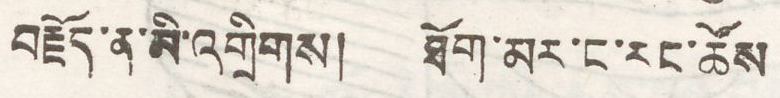བརྗོད་ན་མི་འགྲིགས། ཐོག་མར་ང་རང་ཚོས
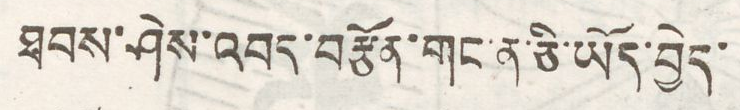ཐབས་ཤེས་འབད་བརྩོན་གང་ན་ཅི་ཡོད་བྱེད་
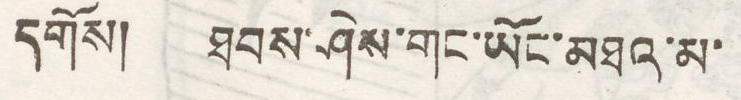དགོས། ཐབས་ཤེས་གང་ཡོད་མཐའ་མ་
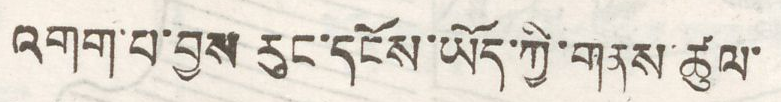འགག་པ་བྱས རུང་དངོས་ཡོད་ཀྱི་གནས་ཚུལ་
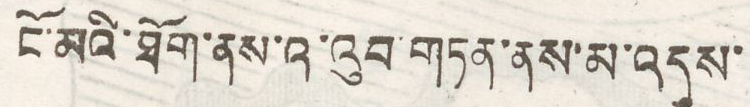ངོ་མའི་ཐོན་ནས་འ་འུབ་གཏན་ནས་མ་འདུས་
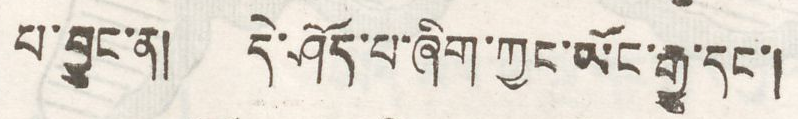པ་བྱུང་ན། དེ་ཤོད་པ་ཞིག་ཀྱང་ཡོང་རྒྱུ་དང་།
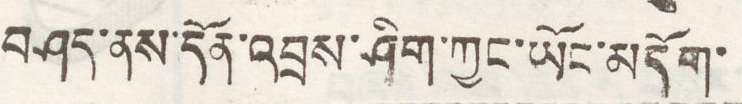བཤད་ནས་དོན་འབྲས་ཤིག་ཀྱང་ཡོང་མདོག་
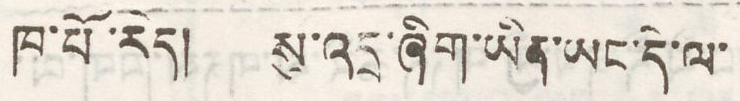ཁ་པོ་རེད། སུ་འདྲ་ཞིག་ཡིན་ཡང་དེ་ལ་
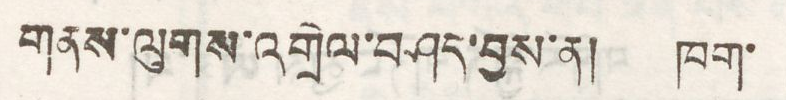གནས་ལུགས་འགྲེལ་བཤད་བྱས་ན། ཁག་
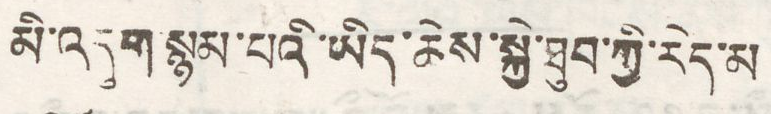མི་འདུག་སྙམ་པའི་ཡིད་ཆེས་སྐྱེ་ཐུབ་ཀྱི་རེད་མ
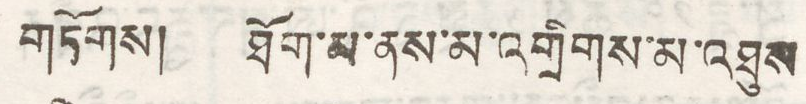གཏོགས། ཐོག་མ་ནས་མ་འགྲིགས་མ་འཐུས
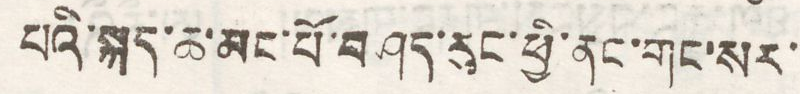པའི་སྐད་ཆ་མང་པོ་བཤད་རུང་ཕྱི་ནང་གང་སར་
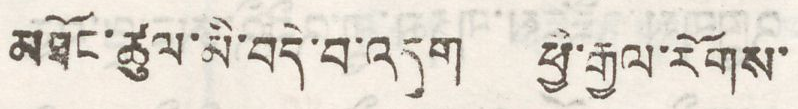མཐོང་ཚུལ་མི་བདེ་བ་འདུག ཕྱི་རྒྱལ་རོགས་
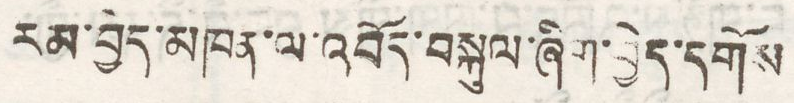རམ་བྱེད་མཁན་ལ་འབོད་བསྐུལ་ཞིག་བྱེད་དགོས
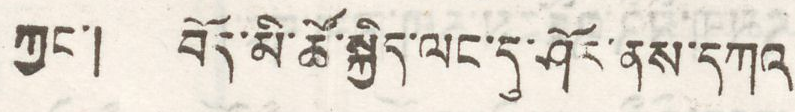ཀྱང་། བོད་མི་ཚོ་སྐྱིད་ལང་དུ་ཤོར་ནས་དཀའ
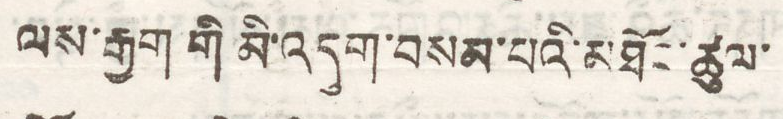ལས་རྒྱག་གི མི་འདུག་བསམ་པའི་མཐོང་ཚུལ་
